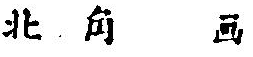北 角 画
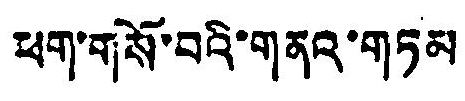ཕག་གསོ་བའི་གནའ་གཏམ
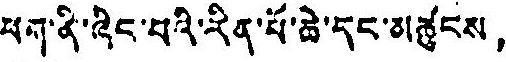ཕག་ནི་ཞིང་པའི་རིན་པོ་ཆེ་དང་མཚུངས，
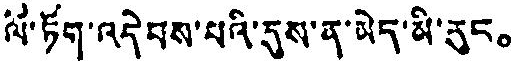ལོ་ཏོག་འདེབས་པའི་དུས་ན་མེད་མི་རུང。
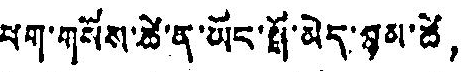པག་གསོས་ཚེ་ན་ཡོང་སྤོ་མེད་ཉམ་ཚེ，
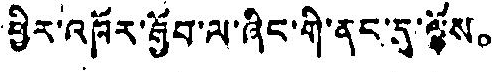ཕྱིར་འཁོར་ཐོབ་ལ་ཞིང་གི་ནང་དུ་ལྟོས。
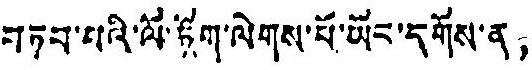བཏབ་པའི་ལོ་ཏོག་ལེགས་པོ་ཡོང་དགོས་ན，
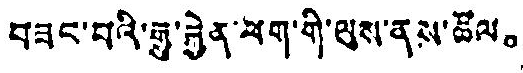བཟང་བའི་རྒྱུ་རྐྱེན་ཕག་གི་ལུས་ནས་ཚོལ。
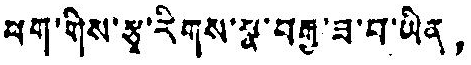ཕག་གིས་རྩྭ་རིགས་སྣ་བརྒྱ་ཟ་བ་ཡིན，
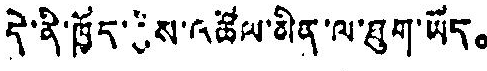དེ་ནི་ཁྱོད་ཅྱིས་འཚོལ་མིན་ལ་ཐུག་ཡོད。
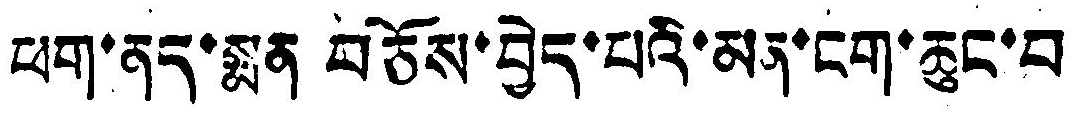ཕག་ནད་སྨན བཅོས་བྱེད་པའི་མན་ངག་ཆུང་བ
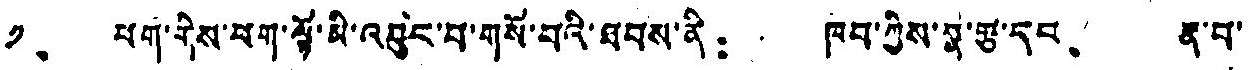༡、ཕག་གིས་ཕག་ལྟོ་མི་འབྱུང་བ་གསོ་བའི་ཐབས་ནི： ཁབ་ཀྱིས་རྣ་རྩ་དང、 ན་བ་
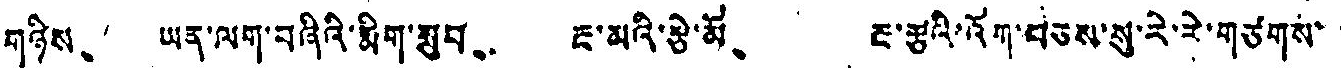གཉིས、 ཡན་ལག་བཞིའི་མིག་སྲུབ、 རྔ་མའི་རྩེ་མོ、 རྔ་རྩྭའི་འོག་བཅས་སུ་རི་རེ་གཙགས་་
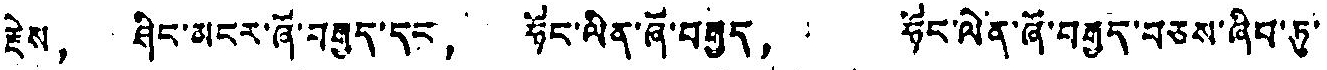རྗེས， ཤིང་མངར་ཞོ་བརྒྱད་དང， ཧོང་ལིན་ཞོ་བརྒྱད， ཧོང་ལེན་ཞོ་བརྒྱད་བཅས་ཞིབ་ཏུ་
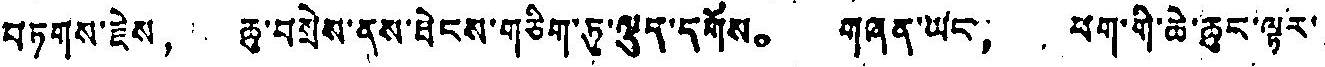བཏགས་རྗེས， ཆུ་བསྲེས་ནས་ཐེངས་གཅིག་ཏུ་ལྡུད་དགོས。 གཞན་ཡང， ཕག་གི་ཆེ་ཆུང་ལྟར་
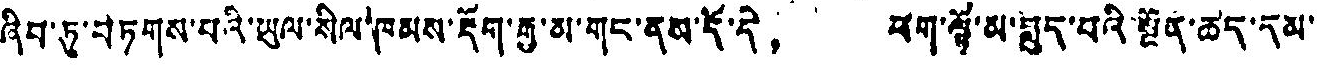ཞིབ་ཏུ་བཏགས་པའི་ཡུལ་སིལ་ཁམས་རྡོག་རྒྱ་མ་གང་ནམ་དོ་དེ， ཕག་ལྷོ་མ་བླུད་པའི་སྔོན་ཚད་དམ་
